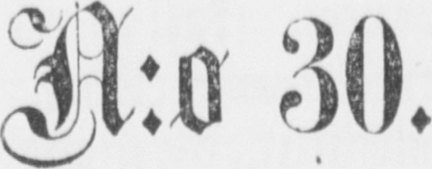N:o 30.
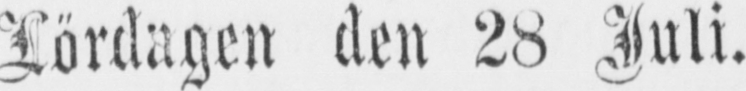Lördagen den 28 Juli.
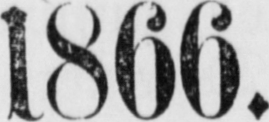1866.
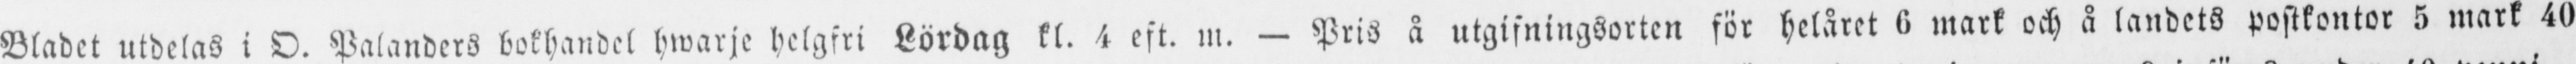Bladet utdelas i O. Palanders bokhandel hwarje helgfri Lördag kl. 4 eft. m. - Pris å utgifningsorten för helåret 6 mark och å landets postkontor 5 mark 40
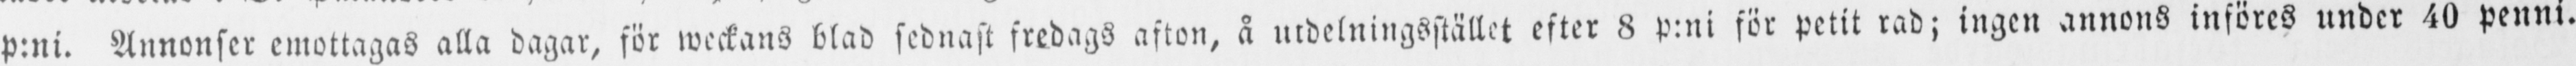p:ni. Annonser emottagas alla dagar, för weckans blad sednast fredags afton, å utdelningsstället efter 8 p:ni för petit rad; ingen annons införes under 40 penni.
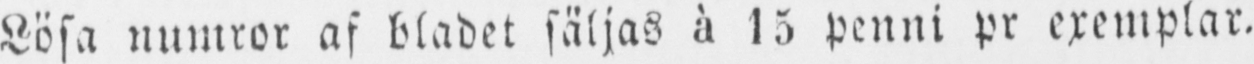Lösa numror af bladet säljas à 15 penni pr exemplar.
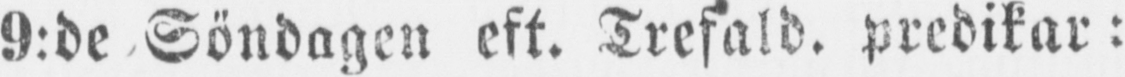9:de Söndagen ett. Trefald. predikar:
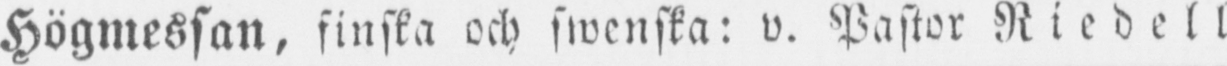Högmessan, finska och swenska: v. Pastor R i e d e l l
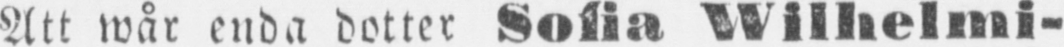Att wår enda dotter Sofia Wilhelmi-
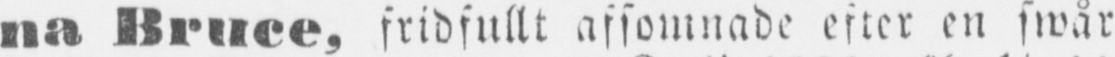na Bruce, fridfullt afsomnade efter en swår
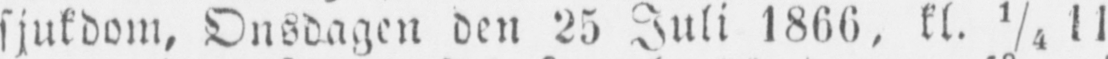sjukdom, Onsdagen den 25 Juli 1866, kl. 1/4 11
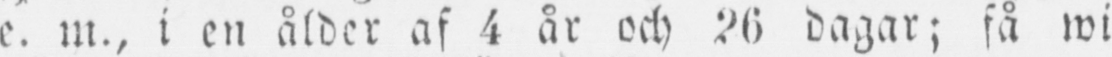e. m., i en ålder af 4 år och 26 dagar; få wi
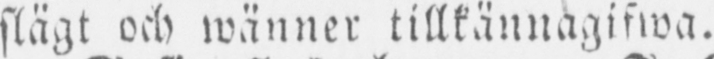slägt och wänner tillkännagifwa.
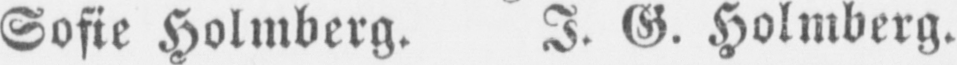Sofie Holmberg. I. G. Holmberg.
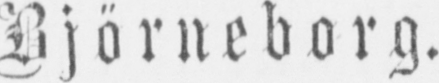Björneborg.
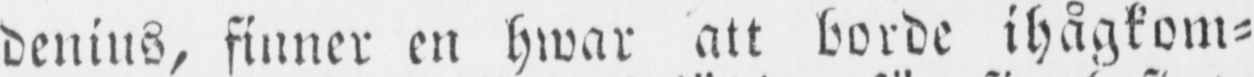denius, finner en hwar att borde ihågkom-
